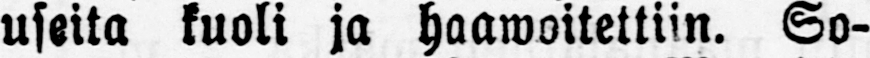useita kuoli ja haawoitettiin. So-
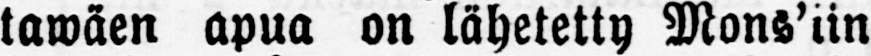tawäen apua on lähetetty Mons'iin
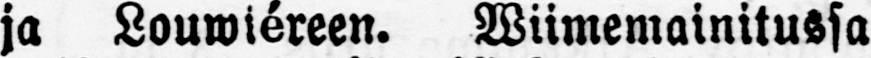ja Louwireen. Wiimemainitussa
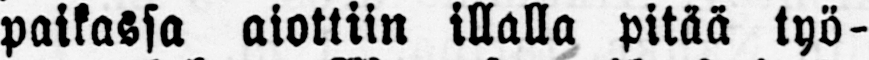paikassa aiottiin illalla pitää työ-
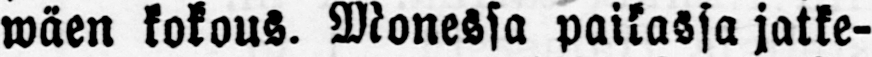wäen kokous. Monessa paikassa jatke-
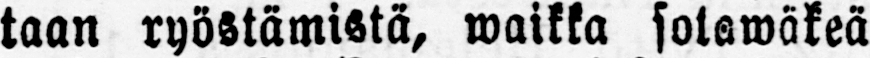taan ryöstämistä, waikka sotawäkeä
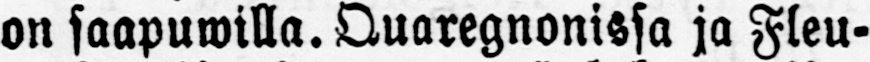on saapuwilla. Quaregnonissa ja Fleu-
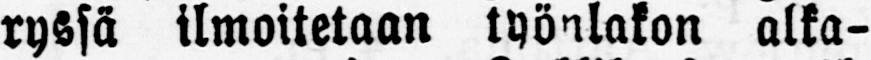ryssä ilmoitetaan työnlakon alka-
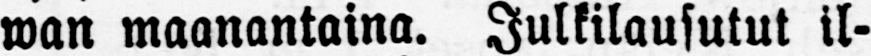wan maanantaina. Julkilausutut il-
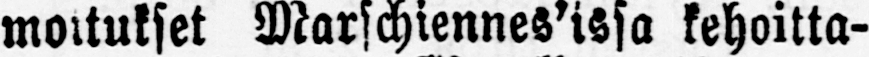moitukset kehoitta-
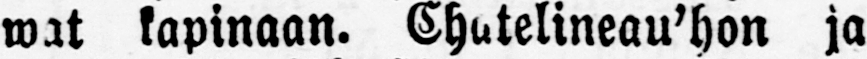wat kapinaan. Chatelineau'hon ja
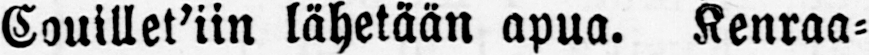Couillet'iin lähetään apua. Kenraa-
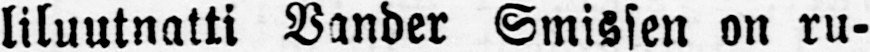liluutnatti Vander Smissen on ru-
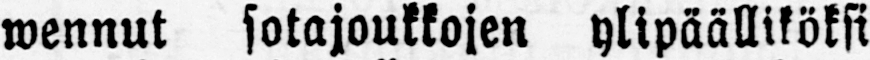wennut sotajoukkojen ylipäälliköksi
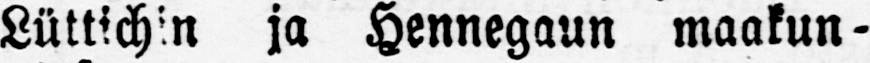Lüttichin ja Hennegaun maakun-
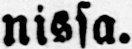nissa.
